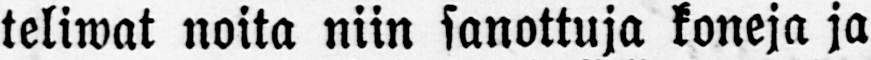teliwat noita niin sanottuja koneja ja
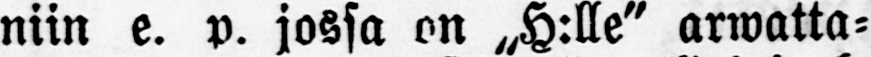niin e. v. jossa on „H:lle" arwatta-
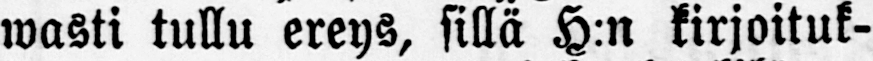wasti tullu ereys, sillä H:n kirjoituk-
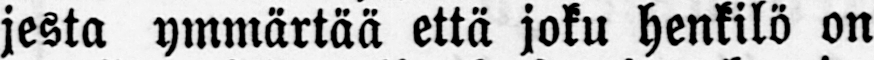sesta ymmärtää että joku henkilö on
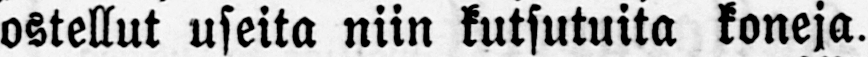ostellut useita niin kutsututta koneja.
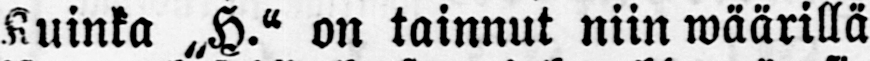Kuinka „H." on tainnut niin wäärillä
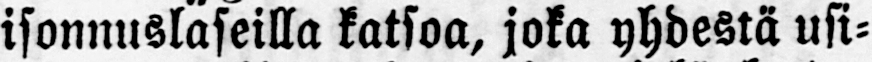isonnuslaseilla katsoa, joka yhdestä usi-
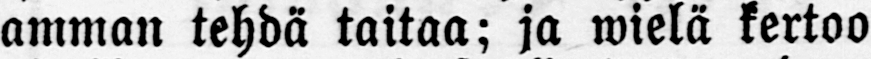amman tehdä taitaa; ja wielä kertoo
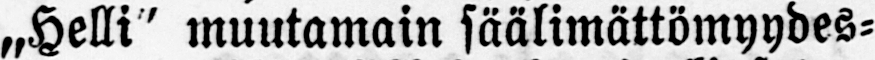„Helli" muutamain säälimättömyydes-
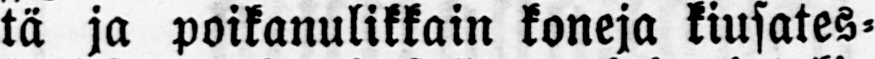tä ja poikanulikkain koneja kiusates-
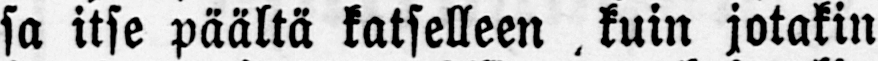sa itse päältä katselleen . kuin jotakin
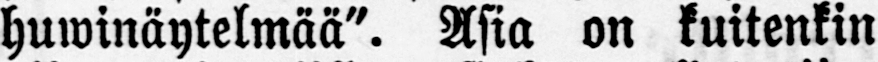huwinäytelmää". Asia on kuitenkin
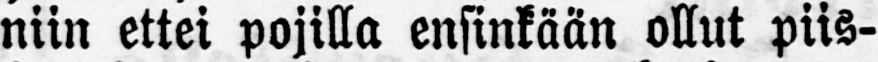niin ettei pojilla ensinkään ollut piis-
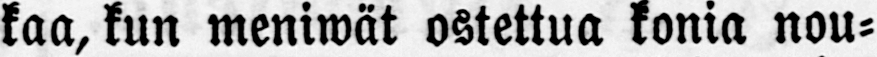kaa, kun meniwät ostettua konia nou-
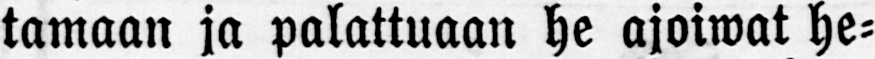tamaan ja palattuaan he ajoiwat he-
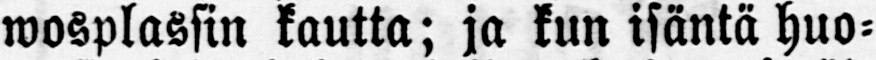wosplassin kautta; ja kun isäntä huo-
